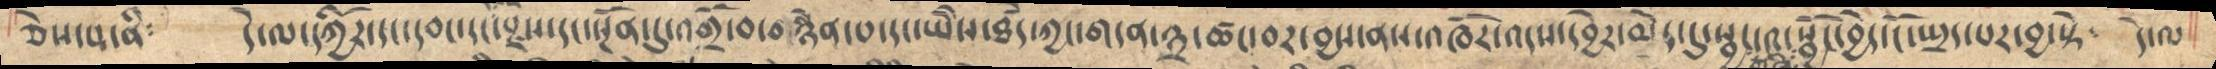ཅེས་པ་ནི༴   དེ་ལ་དཀྱིོར་དང་དབང་དང་སྫས་དང་སྔོན་དུ་འགྲོ་བ་བསྙེན་པ་དང་ཡཻས་ཐཾད་ཀྱང་གདན་༣་ཚང་བར་བྱས་ནས་འཁོར་འདས་དབྱེར་མེད་དུ་སྦྱང་༤་གཞི་སྦྱོང་བྱེད་ངོ་སྤྲད་པར་བྱ་སྟེ༴  དེ་ལ
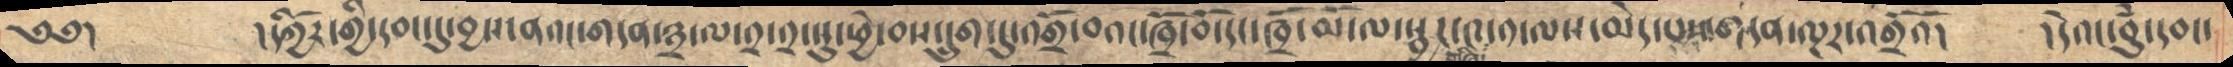༄༅།     །དཀྱིོར་གྱི་དབང་དུ་བྱས་ནའང་གདན་༣་ལ་༢་༢་སུ་ཕྱེ་བས་དྲུག་དུ་འགྲོ་བའང་ཁྲོ་བོ་དང་ཁྲོ་མོ་ལ་སྦྱར་༤་༡་ལས་མེད་པས་གདན་ལྔར་འགྲོའོ།   །དེའང་བུཾ་དབང་
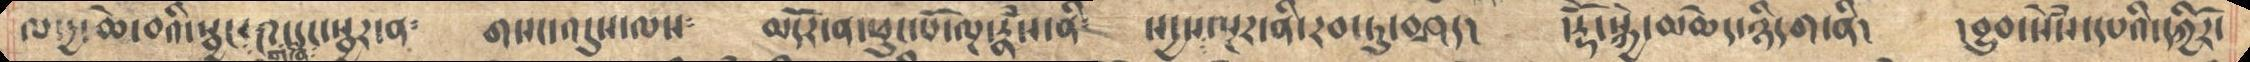ལ་དྱ་ཆེ་བའི་སྦྱང་༤་གཞི་དང་སྦྱར་ན༴  གསང་འདུས་ལས༴  མདོར་ན་ཕུང་པོ་ལྔ་རྣཾས་ནི༴   སདྱས་ལྔར་ནི་རབ་ཏུ་བཤད།  །རྡོེ་སྐྱེ་མཆེད་ཉིདག་ནི།   །བྱུབ་སེཾས་དཔའི་དཀྱིརོ་
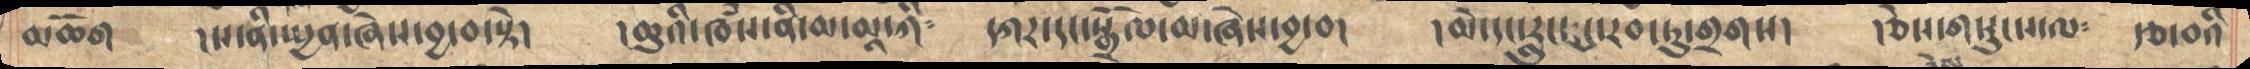མཆོག     །ས་ནི་སྤྱན་ཞེས་བྱ་བ་སྟེ།    །ཆུའི་ཁཾས་ནི་མ་མཱ་ཀི༴   དཀར་དང་སྒྲོལ་མ་ཞེས་བྱ་བ།     །མེ་དང་རླུང་དུ་རབ་ཏུ་གྲགས།   །ཅེས་ག་རུང་ས་ལ༴   རྩ་བའི
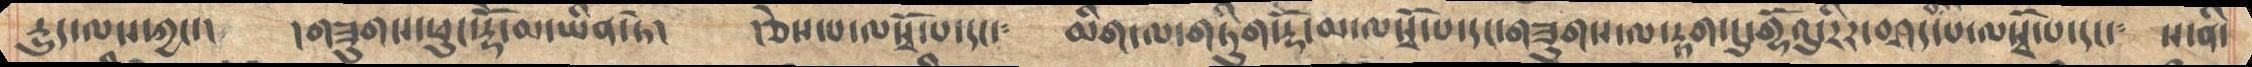དྱུད་ལས་ཀྱང་།     །གཟུགས་ཕུང་རྡོེ་མ་ཡིན་ཏེ།         །ཅེས་པ་ལསྭོ་པ་དང་༴     མིག་ལ་གཏིུག་རྡོེ་མ་ལསྭོ་པ་དང་གཟུགས་ལ་རྟག་དུ་གྷོའུ་རིཌ་བཤད་པ་ལསྭོ་པ་དང་༴  ས་ནི་
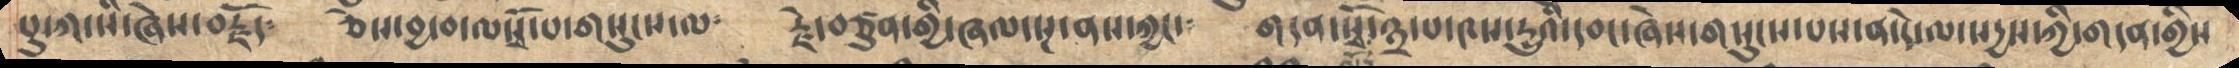སུ་ཀ་སི་ཞེས་བརྗོད༴      ཅེས་བྱ་བ་ལསྭོ་པ་གསུངས་ལ༴   རྗེ་བཙུན་གྱི་ཞལ་སྔ་ནས་ཀྱང་༴     གདན་སྭོ་༣་པ་༤ས་དྱུའི་དབང་ཞེས་གསུངས་པས་ན་དེ་ལ་སདྱས་ཀྱི་གདན་གྱིས
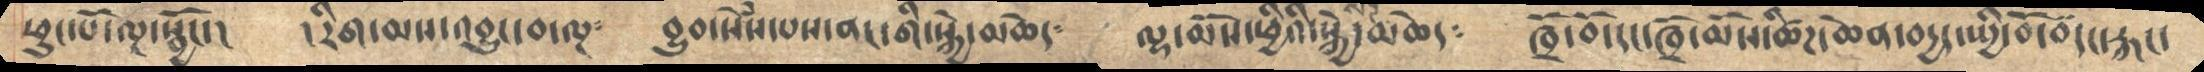ཕུང་པོ་ལྔ་སྦྱོང་།   །རིག་མས་འབྱུང་བ་ལྔ༴   བྱུབ་སེཾ༷ས་པས་ནང་གི་སྐྱེ་མཆེད༴  ལྷ་མོས་ཕྱིའི་སྐྱེ་མཆེད༴   ཁྲོ་བོ་དང་ཁྲོ་མོས་ཚོཌ་ཆེན་བདྱད་སྤྱི་བོ་བོདང་རྐང་་
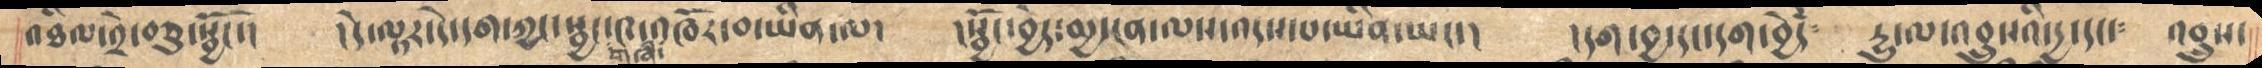འཐིལ་༢ེ་བཅུ་སྦྱོང་།  །དེ་ལྟར་དེ་དག་ཀྱང་སྦྱང་གཞི་༤་འཁོར་བ་ཡིན་ལ།  །སྦྱོང་བྱེད་མྱ་ངན་ལས་འདས་པ་ཡིན་ཡང་།  །དག་བྱ་དང་དག་བྱེད༴   དྱུ་ལ་འབྲུསའི་དྱ་དང་༴  འབྲུས་
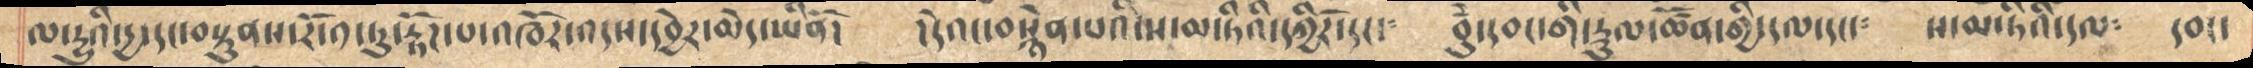ལ་དྱུའི་དྱ་དང་བསྟུནས་རོ་༡་ཏུ་རྟོཌ་པ་འཁོར་འདས་དབྱེར་མེད་ཡིནོ།      །དེའང་པསྙེན་པའི་ས་མ་ཏིའི་དཀྱིོར་དང་༴    བུཾ་དབང་གི་རྡུལ་ཚོན་གྱི་དལ་དང་༴     ས་མ་ཏེའི་དལ༴    དབང་
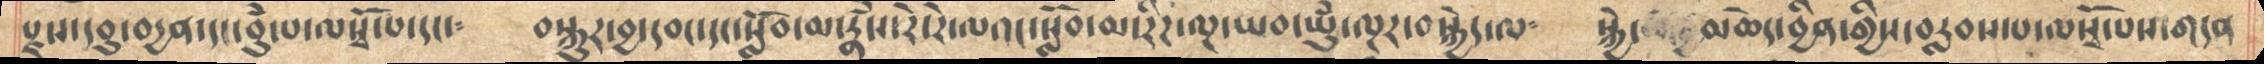རྫས་དབུ་བདྱན་དང་བུཾ་པ་ལསྭོ་པ་དང་༴     བསྐྱུར་བྱ་དབང་དང་སློབ་མ་རྣཾས་རེ་རེ་ལའང་སློབ་མ་རིཌ་ལྔ་ཡབ་ཡུཾ་ལྔར་བསྐྱེད་ལ༴  སྐྱེ་མཆེད་བྱིན་གྱིས་བརླབས་པ་ལསྭོ་པས་གདན
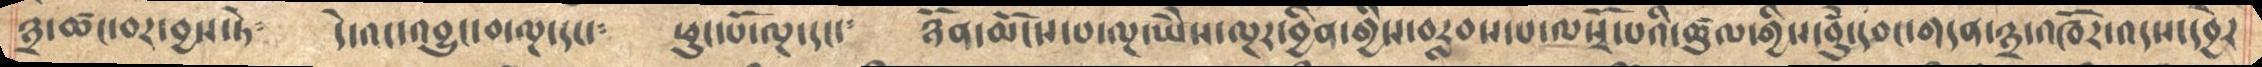༣་ཚང་བར་བྱས་ཏེ༴    དེ་འང་འབྱུང་བ་ལྔ་དང་༴  ཕུང་པོ་ལྔ་དང་༴   ཉོན་མོངས་པ་ལྔ་ཡེེས་ལྔར་བྱིན་གྱིས་བརླབས་པ་ལསྭོ་པའི་ཚུལ་གྱིས་བུཾ་དབང་གདན་༣་འཁོར་འདས་དབྱེར
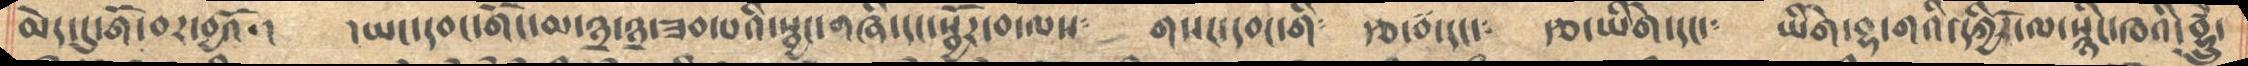མེད་དུ་གོ་བར་བྱའོ་།    །ཡང་དབང་གོང་མ་༣་༣་ཟབ་པའི་སྦྱང་གཞི་དང་སྦྱོར་བ་ལས༴  གསང་དབང་གི༴    རྩ་བ་དང་༴   རྩ་ཡིགེ་དང་༴    ཡིགེ་བྷ་གའི་དཀྱིོར་ལ་སྙིང་ཁའི་བྷྲུཾ་
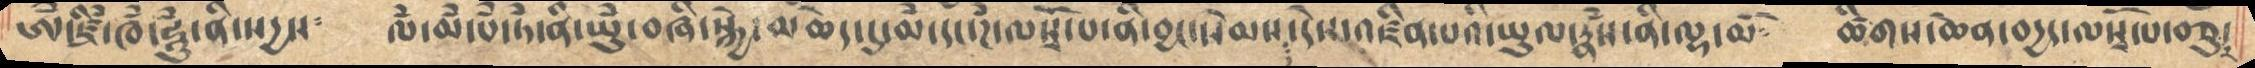ཨཾ་ཛྲིཾ་ཁཾ་ཧཱུཾ་ནི་སདྱས༴    ལཾ་མཾ་པཾ་ཏཾ་ནི་ཡུཾ་བཞི་སྐྱེ་མཆེད་དུ་མཾ་དང་ཌཾ་ལསྭོ་པ་ནི་བྱང་སེམས་དེས་འཛིན་པའི་ཡུལ་རྣཾས་ནི་ལྷ་མོ༴   ཚིགས་ཆེན་བདྱད་ལསྭོ་པ་བཅུར་
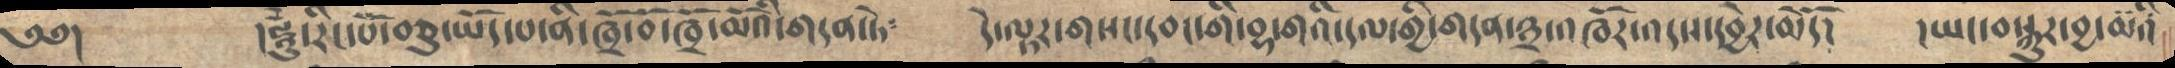༄༅།        །ཧཱུཾ་རིང་པོ་བཅུ་ཡོད་པ་ནི་ཁྲོ་བོ་ཁྲོ་མོའི་གདན་ཏེ༴     དེ་ལྟར་གསང་དབང་གི་བྷ་གའི་དལ་གྱི་གདན་༣་འཁོར་འདས་དབྱེར་མེདོ།    །ཡང་བསྐུར་བྱ་མོའི
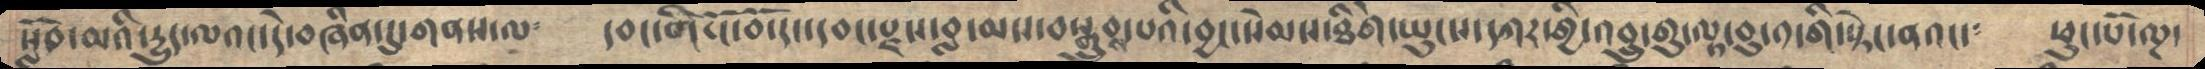སློབ་མའི་རྱུད་ལའང་དེ་བཞིན་དུ་གནས་ལ༴  དབང་གི་ངོ་བོ་དང་དབང་རྫས་བླ་མས་བསྒྲུབས་པའི་བྱང་སེམས་ཐིགེ་ཡུངས་དཀར་གྱི་འབྲུ་གུ་ལྟ་བུ་༡་གི་སྟེང་ནའང་༴  ཕུང་པོ་ལྔ་
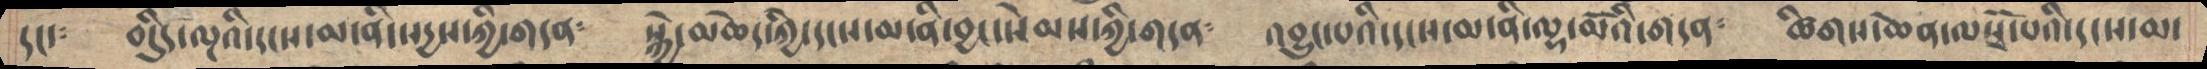དང་༴    བདིུད་ལྔའི་དངས་མ་ནི་སདྱས་ཀྱི་གདན༴     སྐྱེ་མཆེད་ཀྱི་དངས་མ་ནི་བྱང་སེམས་ཀྱི་གདན༴   འབྱུང་པའི་དངས་མ་ནི་ལྷ་མོའི་གདན༴    ཚིགས་ཆེན་་ལསྭོ་པའི་དངས་མ་
